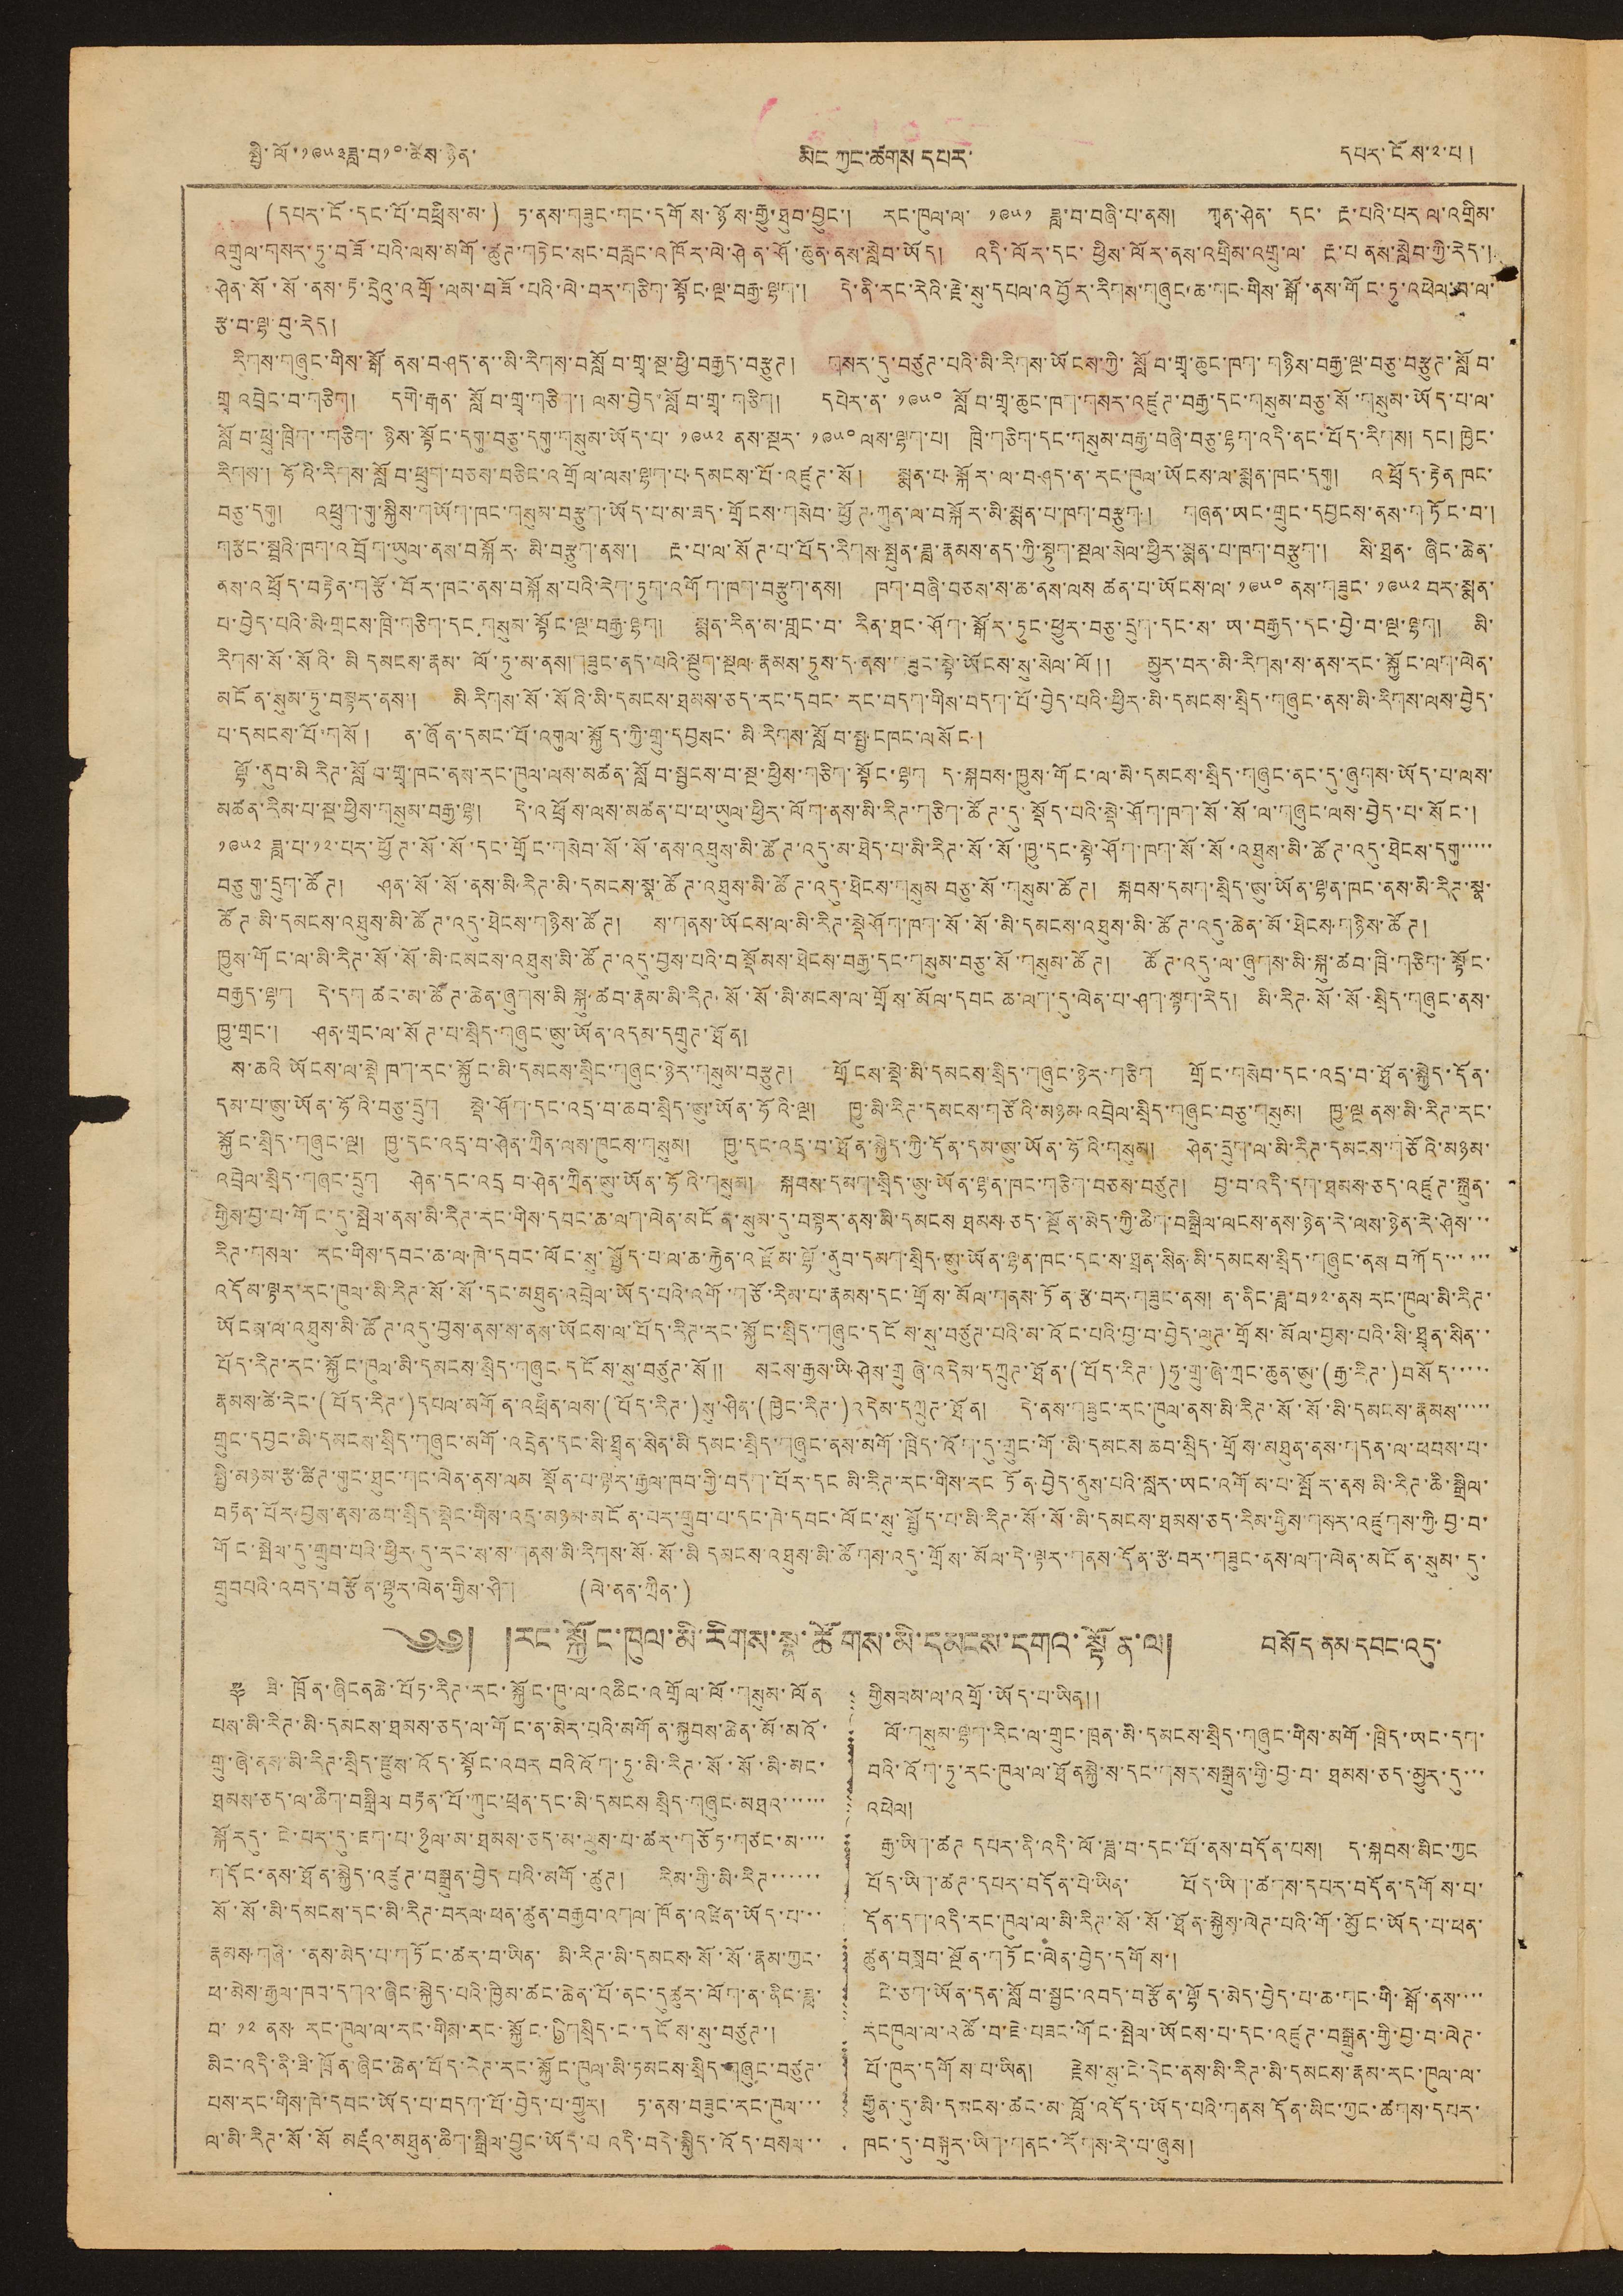སྤྱི་ལོ་༡༩༥༣ཟླ་བ༡༠་ཚེས་ཉིན་ མིང ཀྱང་ཚགས དཔར་ དཔར་ངོས་༢་པ །
(དཔར་ངོ་དང་པོ་བཕྲིས་མ་) ཏ་ནས་གཟུང་གང་དགོས་ཉོས་རྒྱུ་ཐུབ་བྱུང་། རང་ཁུལ་ལ་ ༡༩༥༡ ཟླ་བ་བཞི་པ་ནས། ཀྭན་ཤེན་ དང་ རྔ་པའི་པར ལ་འགྲིམ་
འགྲུལ་གསར་ཏུ་བཟོ་པའི་ལས་མགོ་ཚུཊ་གཏེང་སང་བརླང་འཁོར་ལེ་ཤེན་ཤོ་ཆུན་ནས་སླེབ་ཡོད། འདི་ལོར་དང་ཕྱིས་ལོར་ནས་འགྲིམ་འགྲུ་ལ་ རྔ་པ ནས་སླེབ་ཀྱི་རེད་།
ཤེན་སོ་སོ་ནས་རྟ་དྲེའུ་འགྲོ་ལམ་བཟོ་པའི་ལེ་བར་གཅིག་སྟོང་ལྔ་བརྒྱ་ལྷག་། དེ་ནི་རང་རེའི་རྗེ་སུ་དཔལ་འབྱོར་རིགས་གཞུང་ཆ་གང་གིས་སྒོ་ནས་གོང་ཏུ་འཕེལ་བ་ལ་
རྩ་བ་ལྷ་བུ་རེད།
རིགས་གཞུང་གིས་སྒོ ནས་བཤད་ན་་མི་རིགས་བསློབ་གྲྭ་སྔ་ཕྱི་བརྒྱད་བརྩུཊ། གསར་དུ་བཙུཊ་པའི་མི་རིགས་ཡོངས་ཀྱི་སློབ་གྲྭ་ཆུང་ཁག་གཉིས་བརྒྱ་ལྔ་བཅུ་བརྩུཊ་སློབ་
གྲྭ འབྲེང་བ་གཅིག། དགེ་རྒན་ སློབ་གྲྭ་གཅིག་། ལས་བྱེད་སློབ་གྲྭ་གཅིག། དཔེར་ན་ ༡༩༥༠ སློབ་གྲྭ་ཆུང་ཁག་གསར་འཛུཊ་བརྒྱ་དང་གསུམ་བཅུ་སོ་གསུམ་ཡོད་པ་ལ་
སློབ་ཕྲུ་ཁྲིག་་གཅིག་ཉིས་སྟོང་དགུ་བཅུ་དགུ་གསུམ་ཡོད་པ་ ༡༩༥༢ ནས་སྔར་ ༡༩༥༠ ལས་ལྷག་པ། ཁྲི་གཅིག་དང་གསུམ་བརྒྱ་བཞི་བཅུ་ལྷག་འདི་ནང་བོད་རིགས། དང། ཁྱེང་
རིགས་། ཧོའི་རིགས་སློབ་ཕྲུག་བཅས་བཅིང་འགྲོལ་ལས་ལྷག་པ་དམངས་པོ་འཛུཊ་སོ། སྨན་སྐོར་ལ་བཤད་ན་རང་ཁུལ་ཡོངས་ལ་སྨན་ཁང་དགུ། འཕྲོད་རྟེན ཁང་
བཅུ་དགུ། འཕྲུག་གུ་སྐྱིས་གཡོག་ཁང་གསུམ་བརྩུག་ཡོད་པ་མ་ཟད་གྲོངས་གསེབ་ཕྱོཊ་ཀུན་ལ་བསྐོར་མི་སྨན་པ་ཁག་བརྩུག། གཞན་ཡང་གྲུང་དབྱངས་ནས་གཏོང་བ་།
གཙང་སྤྲའི་ཁག་འབྲོག་ཡུལ་ནས་བསྐོར་མི་བརྩུག་ནས་། རྔ་པ་ལ་སོཊ་པ་བོད་རིགས་སྤུན་ཟླ་རྣམས་ནད་ཀྱི་སྟུག་སྔལ་སེལ་ཕྱིར་སྨན་པ་ཁག་བརྩུག་། སི་ཐྲན་ཞིང་ཆེན་
ནས་འཕྲོད་བརྟེན་གཙོ་བོར་ཁང་ནས་བསྐོས་པའི་རེག་ཏུག་འགོག་ཁག་བརྩུག་ནས། ཁག་བཞི་བཅས་ས་ཆ་ནས་ལས ཚན་པ་ཡོངས་ལ་ ༡༩༥༠ ནས་གཟུང་ ༡༩༥༢ བར་སྨན་
པ་བྱེད་པའི་མི་གྲངས་ཁྲི་གཅིག་དང་གསུམ་སྟོང་ལྔ་བརྒྱ་ལྷག། སྨན་རིན་མ་གླང་བ་ རིན་ཐང་ཤོག་སྒོར་ཏུང་ཕྱུར་བཅུ་དྲུག་དང་ས་ཡ་བརྒྱད་དང་བྱེ་བ་ལྔ་ལྷག། མི་
རིགས་སོ་སོའི་མི དམངས་རྣམ་ ལོ་ཏུ་མ་ནས།གཟུང་ནད་པའི་སྔུག་སྔལ་རྣམས་ཏུས་ད་ནས་གཟུང་སྟེ་ཡོནསྒ་སུ་སེལ་ལོ༎ མྱུར་བར་མི་རིགས་ས་ནས་རང་སྐྱོང་ལག་ལེན་
མངོན་སུམ་ཏུ་བསྟར་ནས་། མི་རིགས་སོ་སོའི་མི་དམངས་ཐམས་ཅད་དང་དབང་རང་བདག་གིས་བདག་པོ་བྱེད་པའི་ཕྱིར་མི་དམངས་སྲིད་གཞུང་ནས་མི་རིགས་ལས་བྱེད་
པ་དམངས་པོ་གསོ། ན་ཞོན་དམང་པོ་འགུལ་སྐྱོད་ཀྱི་གྲུབ་དབྱསང་མི་རིགས་སློབ་སྦྱངཁང་ལ སོང །
ལྷོ་ནུབ་མི རིཊ་སློབ་གྲྭ་ཁང་ནས་རང་ཁུལ་ལས་མཚན་སློབ་སྦྱངས་བ་སྔ་ཕྱིས་གཅིག་སྟོང་ལྷག ད་སྐབས་ཁྱུས་གོང་ལ་མི་དམངས་སྲིད་གཞུང་དུ་ཞུགས་ཡོད་པ་ལས་
མཚན་རིམ་པ་སྔ་ཕྱིས་གསུམ་བརྒྱ་ལྷ། དེ་འཕྲོས་ལས་མཚན་པ་ཕ་ཡུལ་ཕྱིར་ལོག་ནས་མི་རིཊ་གཅིག་ཚོཊ་དུ་སྡོད་པའི་སྡེ་ཤོག་ཁག་སོ་སོ་ལ་གཞུང་ལས་བྱེད་པ་སོང་།
༡༩༥༢ ཟླ་བ་༡༢་པར་ཕྱོཊ་སོ་སོ་དང་གོང་གསེབ་སོ་སོ་ནས་འཐུས་མི་ཚོཊ་འདུ་མ་ཐེད་པ་མི་རིཊ་སོ་སོ་ཁྱུ་དང་སྟེ་ཤོག་ཁག་སོ་སོ་འཐསུ་མི་ཚོཊ་འདུ་ཐེངས་དགུ་་་་་
བཅུ གུ་དྲུག་ཚོཊ། ཤན་སོ་སོ་ནས་མི་རིཊ་མི་དམངས་སྣ་ཚོཊ་འཐུས་མི་ཚོཊ་འདུ་ཐེངས་གསུམ བཅུ་སོ་གསུམ་ཚོཊ། སྐབས་དམག་སྲིད་ཨུ་ཡོན་ལྷན་ཁང་ནས་མེ་རིཊ་སྣ་
ཚོཊ་མི་དམངས་འཐུས་མི་ཚོཊ་འདུ་ཐེངས་གཉིས་ཚོཊ། ས་གནས་ཡོངས་ལ་མི་རིཊ་སྡེཤོག་ཁག་སོ་སོ་མི་དམངས་འཐུས་མི་ཚོཊ་འདུ་ཆེན་མོ་ཐེངས་གཉིས་ཚོཊ།
ཁྱུས་གོང་ལ་མི་རིཊ་སོ་སོ་མི་དམངས་འཐུས་མི་ཚོཊ་འདུ་བྱས་པའི་བསྡོམས་ཐེངས་བརྒྱ་དང་གསུམ་བཅུ་སོ་གསུམ་ཚོཊ། ཚོཊ་འདུ་ལ་ཞུགས་མི་སྐུ་ཚབ་ཁྲི་གཅིག་སྟོང་
བརྒྱད་ལྷག དེ་དག ཚང་མ་ཚོཊ་ཆེན་ཞུགས་མི སྐུ་ཚབ་རྣམ་མི་རིཊ་སོ་སོ་མི་མངས་ལ་གྲོས་མོལ་དབང ཆ་ལག་དུ་ལེན་པ་ཤག་སྟག་རེད། མི་རིཊ་སོ་སོ་སྲིད་གཞུང་ནས་
ཁྱུ་གྲང་། ཤན་གྲང་ལ་སོཊ་པ་སྲིད་གཞུང་ཨུ་ཡོན་འདམ་དགྲུཊ་ཐོན།
ས་ཆའི ཡོངས་ལ་སྡེ ཁག་རང་སྐྱོང་མི་དམངས་སྲིང་གཞུང་ཉེར་གསུམ་བརྩུཊ། གྲོངས་སྡེ་མི་དམངས་སྲིད་གཞུང་ཉེར་གཅིག གྲོང་གསེབ་དང་འདྲ་བ་ཐོན་སྐྱེད་དོན་
དམ་པ་ཨུ་ཡོན་ཧོའི་བཅུ་དྲུག སྡེ་ཤོག་དང་འདྲ་བ་ཆབ་སྲིད་ཨུ་ཡོན་ཧོའི་ལྔ། ཁྱུ་མི་རིཊ་དམངས་གཙོའི་མཉམ་འབྲེལ་སྲིད་གཞུང་བཅུ་གསུམ། ཁྱུ་ལྔ ནས་མི་རིཊ་རང་
སྐྱོང་སྲིད་གཞུང་ལྔ། ཁྱུ་དང་འདྲ་བ་ཤེན་ཀྲིན་ལས་ཁུངས་གསུམ། ཁྱུ་དང་འདྲ་བ་ཐོན་སྐྱེད་ཀྱི་དོན་དམ་ཨུ་ཡོན་ཧོའི་གསུམ། ཤེན་དྲུག་ལ་མི་རིཊ་དམངས་གཙོའི་མཉམ་
འབྲེལ་སྲིད་གཞང་དྲུག ཤེན་དང་འདྲ བ་ཤེན་ཀྲིན་ཨུ་ཡོན་ཧོའི་གསུམ། སྐབས་དམག་སྲིད་ཨུ་ཡོན་ལྷན་ཁང་གཅིག་བཅས་བཙུཊ། བུ་བ་འདི་དག་ཐམས་ཅད་འཛུཊ་སྐྲུན་
གྱིས་བྱ་བ་གོང་དུ་སྤེལ་ནས་མི་རིཊ་རང་གིས་དབང་ཆ་ལག་ལེན་མངོན་སུམ་དུ་བསྟར་ནས་མི་དམངས ཐམས་ཅད་སྔོན་མེད་ཀྱི་ཆིག་བསྒྲིལ་ལངས་ནས་ཉེན་རེ་ལས་ཉེན་རེ་ཤེས་་་
རིཊ་གསལ་ རང་གིས་དབང་ཆ་ལ་ཁེ་དབང་ལོང་སུ་སྤྱོད་པ་ལ་ཆ་རྐྱེན་འཛོམ་ལྷོ་ནུབ་དམག་སྲིད་ཨུ་ཡོན་ལྷན་ཁང་དང་ས་ཐྲན་སིན་མི་དམངས་སྲིད་གཞུང་ནས བཀོད་་་་་་
འདོམ་ལྟར་རང་ཁུལ་མི་རིཊ་སོ་སོ་དང་མཐུན་འབྲེལ་ཡོད་པའི་འགོ་གཙོ་རིམ་པ་རྣམས་དང་གྲོས་མོལ་གནས་ཏོན་རྩ་བར་གཟུང་ནས། ན་ནིང་ཟླ་བ༡༢་ནས རང་ཁུལ་མི་རིཊ་
ཡོངས་ལ་འཐུས་མི་ཚོཊ་འདུ་བྱས་ནས་ས་ནས་ཡོངས་ལ་བོད་རིཊ་རང་སྐྱོང་སྲིད་གཞུང་དངོས་སུ་བཙུཊ་པའི་མ་འོང་པའི་བྱ་བ་བྱེད་ལུཊ་གྲོས་མོལ་བྱས་པའི་སི་ཐྲྭན་སིན་་
བོད་རིཊ་རང་སྐྱོང་ཁུལ་མི་དམངས་སྲིད་གཞུང་དངོས་སུ་བཙུཊ་སོ༎ སངས་རྒྱས་ཡི་ཤེས་གྲུ ཞེ་འདེམ་དཀྲུཊ་ཐོན་(བོད་རིཊ་)ཧུ་གྲུ་ཞེ་ཀྲང་ཆུན་ཨུ་(རྒྱ་རིཊ་)བསོད་་་་་
རྣམས་ཚེ་རེང་(བོད་རིཊ་)དཔལ་མགོན་འཕྲིན་ལས་(བོད་རིཊ་)སུ་ཤིན་(ཁྱེང་རིཊ་)འདེམ་དཀྲུཊ་ཐོན། དེ་ནས་གཟུང་རང་ཁུལ་ནས་མི་རིཊ་སོ་སོ་དམངས་རྣམས་་་་་
གྲུང་དབྱང་མི་དམངས་སྲིད་གཞུང་མགོ་འདྲེན་དང་སི་ཐྲྭན་སིན་མི དམང་སྲིད་གཞུང་ནས་མགོ་ཁྲིད་འོག་དུ་གྲུང་གོ་མི་དམངས ཆབ་སྲིད་གྲོས་མཐུན་ནས་གདན་ལ་ཕབས་པ་
སྤྱི་མཉམ་རྩ་ཚིཊ་གུང་ཐུང་གང་ལེན་ནས་ལམ སྡོན་པ་ལྟར་རྒྱལ་ཁབ་གྱི་བདག་པོར་དང མི་རིཊ་རང་གིས་རང ཏོན་བྱེད་ནུས་པའི་སླར་ཡང་འགོམ་པ་སྤོར་ནས མི་རིཊ་ཆི་སྒྲིལ་
བརྟན་པོར་བྱས་ནས་ཆབ་སྲིད་སྡེང་གིས་འདྲ་མཉམ་མངོན་པར་གྲུབ་པ་དང་ཁེ་དབང་ལོང་སུ་སྤྱོད་པ་མི་རིཊ་སོ་སོ་མི་དམངས་ཐམས་ཅད་རིམ་གྱིས་གསར་འཛུགས་ཀྱི་བྱ་བ་
གོང་སྤེལ་དུ་གྲུབ་པའི་ཕྱིར་དུ་རང་ས་ས་གནས་མི་རིགས་སོ་སོ་མི དམངས་འཐུས་མི་ཚོགས་འདུ་གྲོས་མོལ་དེ་ལྟར་གནས་དོན་རྩ་བར་གཟུང་ནས་ལག་ལེན་མངོན་སུམ་དུ་
གྲུབཔའི་འབད་བརྩོན་ལྷར་ལེན་གྱིས་ཤིག (ལེ་ནན་ཀྲིན་)
༄༅། །རང་སྐྱོང་ཁུལ་མི་རིགས་སྣ་ཚོགས་མི་དམངས་དགའ་སྟོན་ལ།
བསོད་ནམ་དབང་འདུ་
༈ ཟི་ཁྲོན་ཞིངནཆེ་པོ་རིཊ་རང་སྐྱོང་ཁུ་ལ་འཆིང་འགྲོལ་ལོ་གསུམ་ལོན
པས་མི་རིཊ་མི་དམངས་ཐམས་ཅད་ལ་གོང་ན་མེར་པའི་མགོན་སྐྱབས་ཆེན་མོ་མའོ་
གྲུ་ཞེ་ནས་མི་རིཊ་སྲིད་རྫུས་འོད་སྟོང་འབར བའི འོག་ཏུ་མི་རིཊ་སོ་སོ་མི་མང་
ཐམས་ཅད་ལ་ཆིག་བསྒྲིལ་བརྟན་པོ་ཀུང་ཕྲན་དང་མི་དམངས སྲིད་གཞུང་མཐའ་་་་་་
སྐོརདུ་ངེ་པར་དུ་ཇག་པ་ཉུལ་མ་ཐམས་ཅད་མ་ལུས་པ་ཚར་གཅོཏ་གཙང་མ་་་་
གདོང་ནས་ཐོན་སྐྱེད་འཛུཊ་བསྒྲུན་བྱེད པའི་མགོ་ཚུཊ། རིམ་གྱི་མི་རིཊ་་་་་་
སོ་སོ་མི་དམངས་དང་མི་རིཊ་བརལ་ཕན་ཚུན་བརྒྱབ་འགལ་ཁོན་འཛིན་ཡོད་པ་་་
རྣམས་གཞི་་ནས་མེད་པ་གཏོང་ཚར་བ་ཡིན་ མི་རིཊ་མི་དམངས་སོ་སོ་རྣམ་ཀྱང་
ཕ་མེས་རྒྱལ་ཁབ་དགའ་ཞིང་སྐྱེད་པའི་ཁྱིམ་ཚང་ཆེན་པོ་ནང་དུ ཚུར་ལོག་ན་ནིང་ཟླ་
བ་ ༡༢ ནས་རང་ཁུལ་ལ་རང་གིས་རང་སྐྱོང་ཞིག་སྲིདང་དངོས་སུ་བཙུཊ་།
མིང་འདི་ནི་ཟི་ཁྲོན་ཞིང་ཆེན་བོད་རིཊ་རང་སྐྱོང་ཁུལ་མི་ཏམངས་སྲིད་གཞུང་བཙུཊ་
པས་རང་གིས་ཁེ་དབང་ཡོད་པ་བདག་པོ་བྱེད་པ་གྱུར། ཏ་ནས་བཟུང་རང་ཁུལ་་་
ལ་མི་རིཊ་སོ་སོ མཛའ་མཐུན་ཆིག་སྒྲིལ་བྱུང་ཡོད་པ འདི་བདེ་སྐྱིད་འོད་བསལ་་
གྱིསལམ་ལ་འགྲོ་ཡོད་པ་ཡིན༎
ལོ་གསུམ་ལྷག་རིང་ལ་གྲུང་ཁྲན་མི་དམངས་སྲིད་གཞུང་གིས་མགོ་ཁྲིད་ཡང་དག་
བའི་འོག་ཏུ་རང་ཁུལ་ལ་ཐོནསྐྱེ་ས་དང་གསར་སསྒྲུན་གྱི་བྱ་བ་ཐམས་ཅད་མྱུར་དུ་་་
འཕེལ།
རྒྱུ་ཡིག་ཚཊ དཔར་ནི་འདི་ལོ་ཟླ་བ་དང་པོ་ནས་བདོན་པས། ད་སྐབས་མིང་ཀྱང
བོད་ཡིག་ཚཊ་དཔར་བདོན་པེ་ཡིན་ བོད་ཡིག་ཚགས་དཔར་བདོན་དགོས་པ་
དོན་དག་འདི་རང་ཁུལ་ལ་མི་རིཊ་སོ་སོ་ཐོན་སྐྱེས་ལེཊ་པའི་གོ་མྱོང་ཡོད་པ་ཕན་
ཚུན་བསླབ་སྔོན་གཏོང་ལེན་བྱེད་དགོས་།
ངེ་ཅག་ཡོན་དན་སློབ་སྦྱང་འབད་བརྩོན་ལྷོད་མེད་བྱེད་པ་ཆ་གང་གི་སྒོ་ནས་་་་
རངཁུལ་ལ་འཚོ་བ་ཇེ་བཟང་གོང་སྤེལ་ཡོངས་པ་དང་འཛུཊ་བསྒྲུན་གྱི་བྱ་བ་ལེཊ་
པོ་ཁུར་དགོས་པ་ཡིན། རྗེས་སུ་ངེ་དེང་ནས་མི་རིཊ་མི་དམངས་རྣམ་རང་ཁུལ་ལ་
རྒྱུན་དུ་མི་དམངས་ཚང་མ་བློ་འདོད་ཡོད་པའི་གནས དོན་མིང་ཀྱང་ཚགས་དཔར་
ཁང་དུ་བསྐུར་ཡིག་གནང་རོགས་རེ་བ་ཞུས།
